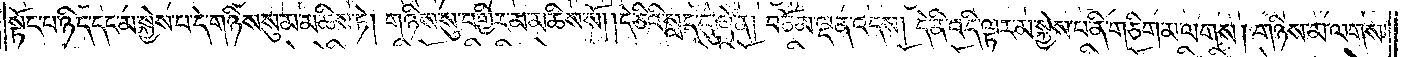སྟོང་པ་ཉིད་དང་མ་སྐྱེས་པ་དེ་གཉིས་སུ་མ་མཆིས་ཏེ། གཉིས་སུ་བགྱིར་མ་མཆིས་སོ། །དེ་ཅིའི་སླད་དུ་ཞེ་ན། བཅོམ་ལྡན་འདས། དེ་ནི་འདི་ལྟར་མ་སྐྱེས་པ་ནི་གཅིག་མ་ལགས། གཉིས་མ་ལགས།
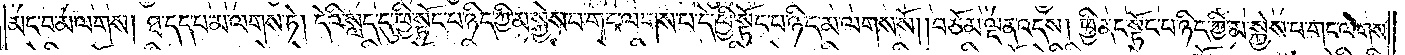མང་བ་མ་ལགས། ཐ་དད་པ་མ་ལགས་ཏེ། དེའི་སླད་དུ་ཕྱི་སྟོང་པ་ཉིད་ཀྱི་མ་སྐྱེས་པ་གང་ལགས་པ་དེ་ཕྱི་སྟོང་པ་ཉིད་མ་ལགས་སོ། །བཅོམ་ལྡན་འདས། ཕྱི་ནང་སྟོང་པ་ཉིད་ཀྱི་མ་སྐྱེས་པ་གང་ལགས་
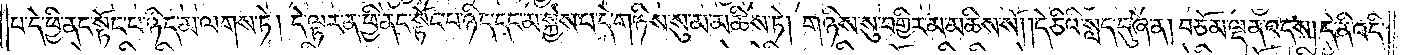པ་དེ་ཕྱི་ནང་སྟོང་པ་ཉིད་མ་ལགས་ཏེ། དེ་ལྟར་ན་ཕྱི་ནང་སྟོང་པ་ཉིད་དང་མ་སྐྱེས་པ་དེ་གཉིས་སུ་མ་མཆིས་ཏེ། གཉིས་སུ་བགྱིར་མ་མཆིས་སོ། །དེ་ཅིའི་སླད་དུ་ཞེ་ན། བཅོམ་ལྡན་འདས། དེ་ནི་འདི་
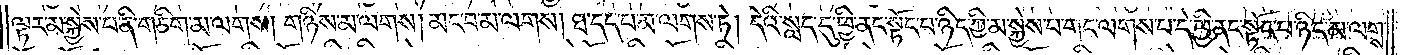ལྟར་མ་སྐྱེས་པ་ནི་གཅིག་མ་ལགས། གཉིས་མ་ལགས། མང་བ་མ་ལགས། ཐ་དད་པ་མ་ལགས་ཏེ། དེའི་སླད་དུ་ཕྱི་ནང་སྟོང་པ་ཉིད་ཀྱི་མ་སྐྱེས་པ་གང་ལགས་པ་དེ་ཕྱི་ནང་སྟོང་པ་ཉིད་མ་ལགས་
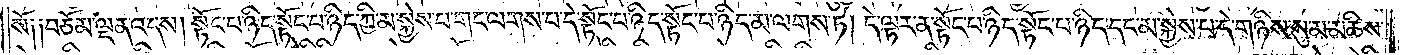སོ༑ ༑བཅོམ་ལྡན་འདས། སྟོང་པ་ཉིད་སྟོང་པ་ཉིད་ཀྱི་མ་སྐྱེས་པ་གང་ལགས་པ་དེ་སྟོང་པ་ཉིད་སྟོང་པ་ཉིད་མ་ལགས་ཏེ། དེ་ལྟར་ན་སྟོང་པ་ཉིད་སྟོང་པ་ཉིད་དང་མ་སྐྱེས་པ་དེ་གཉིས་སུ་མ་མཆིས་
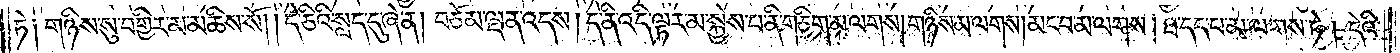ཏེ༑ གཉིས་སུ་བགྱིར་མ་མཆིས་སོ། །དེ་ཅིའི་སླད་དུ་ཞེ་ན། བཅོམ་ལྡན་འདས། དེ་ནི་འདི་ལྟར་མ་སྐྱེས་པ་ནི་གཅིག་མ་ལགས། གཉིས་མ་ལགས། མང་བ་མ་ལགས། ཐ་དད་པ་མ་ལགས་ཏེ། དེའི་
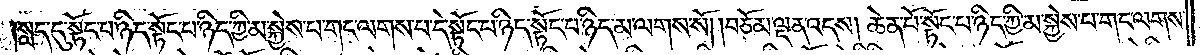སླད་དུ་སྟོང་པ་ཉིད་སྟོང་པ་ཉིད་ཀྱི་མ་སྐྱེས་པ་གང་ལགས་པ་དེ་སྟོང་པ་ཉིད་སྟོང་པ་ཉིད་མ་ལགས་སོ། །བཅོམ་ལྡན་འདས། ཆེན་པོ་སྟོང་པ་ཉིད་ཀྱི་མ་སྐྱེས་པ་གང་ལགས་
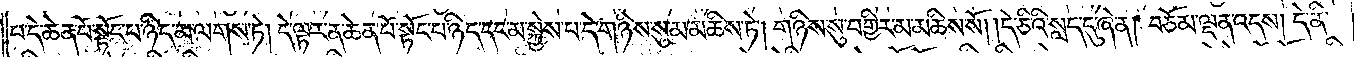པ་དེ་ཆེན་པོ་སྟོང་པ་ཉིད་མ་ལགས་ཏེ། དེ་ལྟར་ན་ཆེན་པོ་སྟོང་པ་ཉིད་དང་མ་སྐྱེས་པ་དེ་གཉིས་སུ་མ་མཆིས་ཏེ། གཉིས་སུ་བགྱིར་མ་མཆིས་སོ། །དེ་ཅིའི་སླད་དུ་ཞེ་ན། བཅོམ་ལྡན་འདས། དེ་ནི་
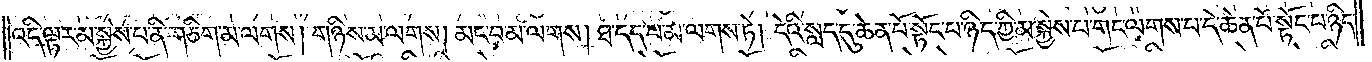འདི་ལྟར་མ་སྐྱེས་པ་ནི་གཅིག་མ་ལགས། གཉིས་མ་ལགས། མང་བ་མ་ལགས། ཐ་དད་པ་མ་ལགས་ཏེ། དེའི་སླད་དུ་ཆེན་པོ་སྟོང་པ་ཉིད་ཀྱི་མ་སྐྱེས་པ་གང་ལགས་པ་དེ་ཆེན་པོ་སྟོང་པ་ཉིད་
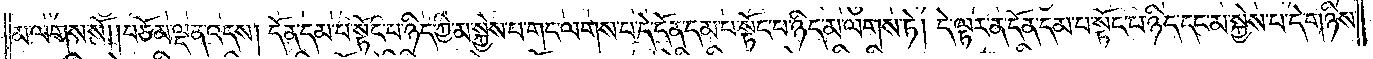མ་ལགས་སོ། །བཅོམ་ལྡན་འདས། དོན་དམ་པ་སྟོང་པ་ཉིད་ཀྱི་མ་སྐྱེས་པ་གང་ལགས་པ་དེ་དོན་དམ་པ་སྟོང་པ་ཉིད་མ་ལགས་ཏེ། དེ་ལྟར་ན་དོན་དམ་པ་སྟོང་པ་ཉིད་དང་མ་སྐྱེས་པ་དེ་གཉིས་
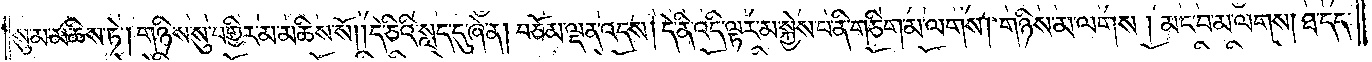སུ་མ་མཆིས་ཏེ། གཉིས་སུ་བགྱིར་མ་མཆིས་སོ། །དེ་ཅིའི་སླད་དུ་ཞེ་ན། བཅོམ་ལྡན་འདས། དེ་ནི་འདི་ལྟར་མ་སྐྱེས་པ་ནི་གཅིག་མ་ལགས། གཉིས་མ་ལགས། མང་བ་མ་ལགས། ཐ་དད་
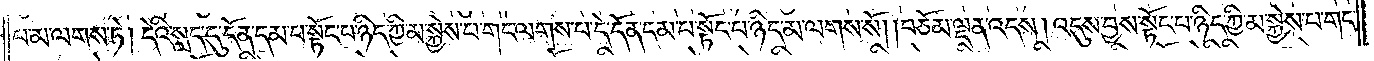པ་མ་ལགས་ཏེ། དེའི་སླད་དུ་དོན་དམ་པ་སྟོང་པ་ཉིད་ཀྱི་མ་སྐྱེས་པ་གང་ལགས་པ་དེ་དོན་དམ་པ་སྟོང་པ་ཉིད་མ་ལགས་སོ། །བཅོམ་ལྡན་འདས། འདུས་བྱས་སྟོང་པ་ཉིད་ཀྱི་མ་སྐྱེས་པ་གང་
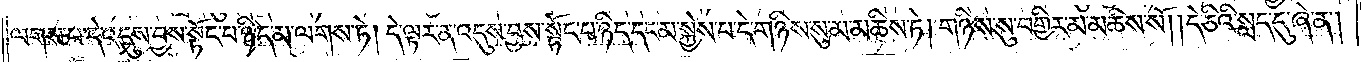ལགས་པ་དེ་འདུས་བྱས་སྟོང་པ་ཉིད་མ་ལགས་ཏེ། དེ་ལྟར་ན་འདུས་བྱས་སྟོང་པ་ཉིད་དང་མ་སྐྱེས་པ་དེ་གཉིས་སུ་མ་མཆིས་ཏེ། གཉིས་སུ་བགྱིར་མ་མཆིས་སོ། །དེ་ཅིའི་སླད་དུ་ཞེ་ན།
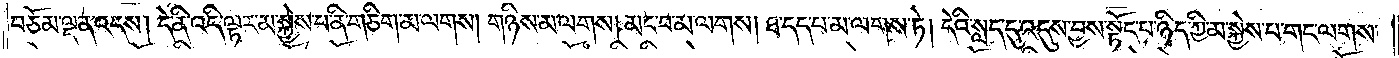བཅོམ་ལྡན་འདས། དེ་ནི་འདི་ལྟར་མ་སྐྱེས་པ་ནི་གཅིག་མ་ལགས། གཉིས་མ་ལགས། མང་བ་མ་ལགས། ཐ་དད་པ་མ་ལགས་ཏེ། དེའི་སླད་དུ་འདུས་བྱས་སྟོང་པ་ཉིད་ཀྱི་མ་སྐྱེས་པ་གང་ལགས་
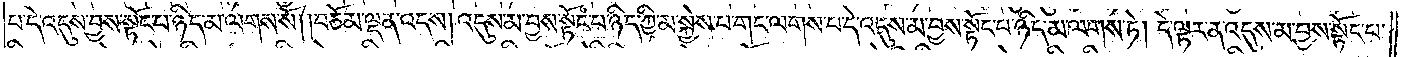པ་དེ་འདུས་བྱས་སྟོང་པ་ཉིད་མ་ལགས་སོ། །བཅོམ་ལྡན་འདས། འདུས་མ་བྱས་སྟོང་པ་ཉིད་ཀྱི་མ་སྐྱེས་པ་གང་ལགས་པ་དེ་འདུས་མ་བྱས་སྟོང་པ་ཉིད་མ་ལགས་ཏེ། དེ་ལྟར་ན་འདུས་མ་བྱས་སྟོང་པ་
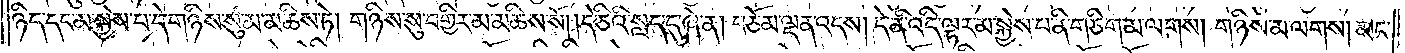ཉིད་དང་མ་སྐྱེས་པ་དེ་གཉིས་སུ་མ་མཆིས་ཏེ། གཉིས་སུ་བགྱིར་མ་མཆིས་སོ། །དེ་ཅིའི་སླད་དུ་ཞེ་ན། བཅོམ་ལྡན་འདས། དེ་ནི་འདི་ལྟར་མ་སྐྱེས་པ་ནི་གཅིག་མ་ལགས། གཉིས་མ་ལགས། མང་
